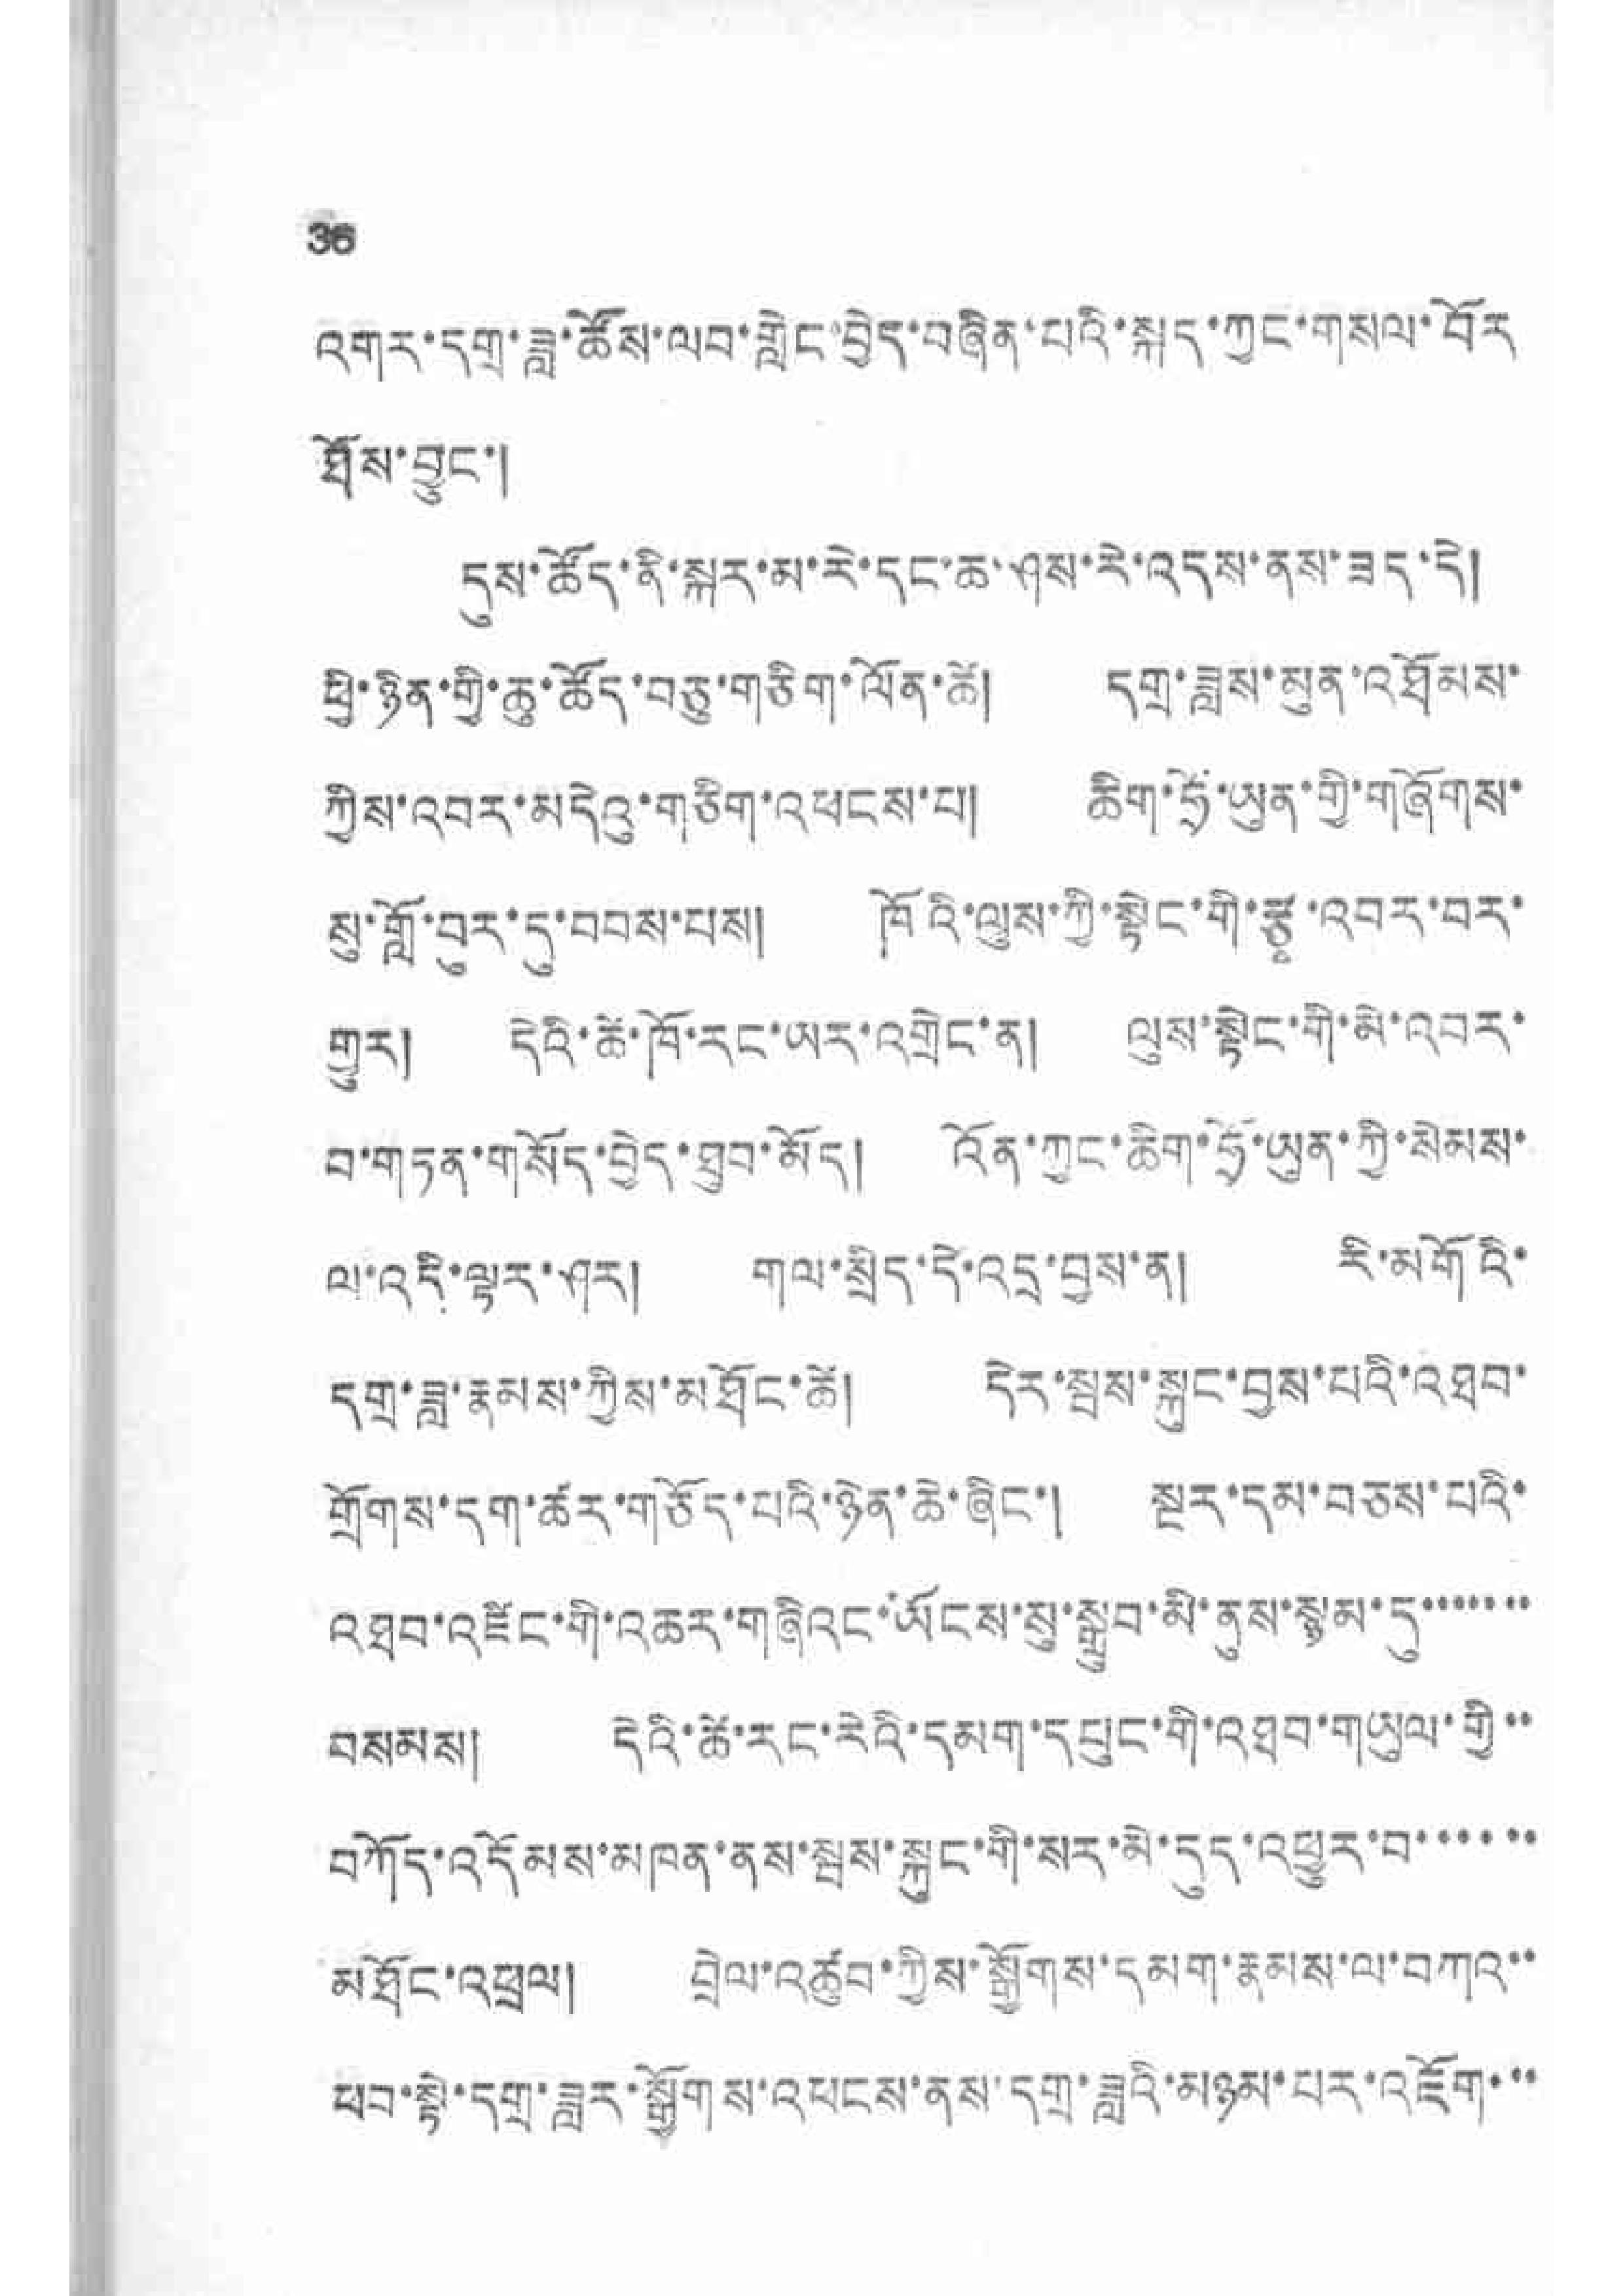36
འགར་དགྲ་ཟླ་ཚོས་ལབ་གླེང་བྱེད་བཞིན་པའི་སྐད་ཀྱང་གསལ་བོར
ཐོས་བྱུང་།
དུས་ཚོད་ནི་སྐར་མ་རེ་དང་ཆ་ཤས་རེ་འདས་ནས་ཟད་དེ།
ཕྱི་ཉིན་གྱི་ཆུ་ཚོད་བཅུ་གཅིག་ལོན་ཚེ། དགྲ་ཟླས་མུན་འཐོམས་
ཀྱིས་འབར་མདེའུ་གཅིག་འཕངས་པ། ཆིག་ཧྲོ་ཡུན་གྱི་གཞོགས་
སུ་གློ་བུར་དུ་བབས་པས། ཁོའི་ལུས་ཀྱི་སྟེང་གི་རྩྭ་འབར་བར་
གྱུར། དེའི་ཚེ་ཁོ་རང་ཡར་འགྲེང་ན། ལུས་སྟེང་གི་མེ་འབར་
བ་གཏན་གསོད་བྱེད་ཐུབ་མོད། འོན་ཀྱང་ཆིག་ཧྲོ་ཡུན་ཀྱི་སེམས་
ལ་འདི་ལྟར་ཤར། གལ་སྲིད་དེ་འདྲ་བྱས་ན། རི་མགོའི་
དགྲ་ཟླ་རྣམས་ཀྱིས་མཐོང་ཚེ། དེར་སྦས་སྐུང་བྱས་པའི་འཐབ་
གྲོགས་དག་ཚར་གཅོད་པའི་ཉེན་ཆེ་ཞིང་། སྔར་དམ་བཅས་པའི་
འཐབ་འཛིང་གི་འཆར་གཞིའང་ཡོངས་སུ་སྒྲུབ་མི་ནུས་སྙམ་དུ་་་་་་་
བསམས། དེའི་ཚེ་རང་རེའི་དམག་དཔུང་གི་འཐབ་གཡུལ་གྱི་་
བཀོད་འདོམས་མཁན་ནས་སྦས་སྐུང་གི་སར་མེ་དུད་འཕྱུར་བ་་་་་་
མཐོང་འཕྲུལ། བྲེལ་འཚུབ་ཀྱིས་སྒྱོགས་དམག་རྣམས་ལ་བཀའ་་
ཕབ་སྟེ་དགྲ་ཟླར་སྒྱོགས་འཕངས་ནས་དགྲ་ཟླའི་མཉམ་པར་འཇོག་་་
